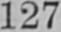127
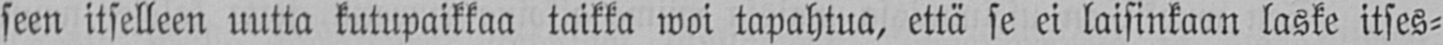seen itselleen uutta kutupaikkaa taikka woi tapahtua, että se ei laisinkaan laske itses-
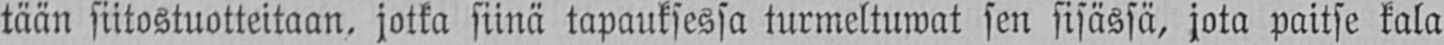tään siitostuotteitaan, jotka siinä tapauksessa turmeltuwat sen sisässä, jota paitse kala
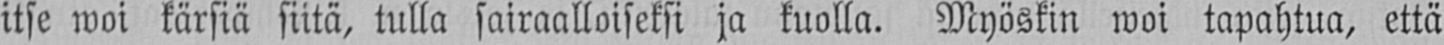itse woi kärsiä siitä, tulla sairaalloiseksi ja kuolla. Myöskin woi tapahtua, että
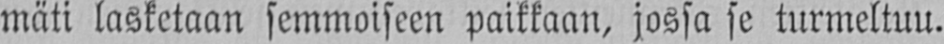mäti lasketaan semmoiseen paikkaan, jossa se turmeltuu.
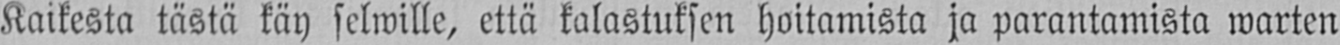Kaikesta tästä käy selwille, että kalastuksen hoitamista ja parantamista warten
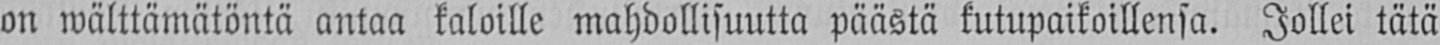on wälttämätöntä antaa kaloille mahdollisuutta päästä kutupaikoillensa. Jollei tätä
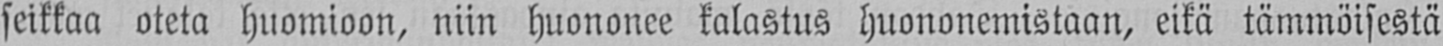seikkaa oteta huomioon, niin huononee kalastus huononemistaan, eikä tämmöisestä
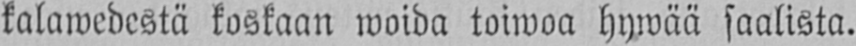kalawedestä koskaan woida toiwoa hywää saalista.
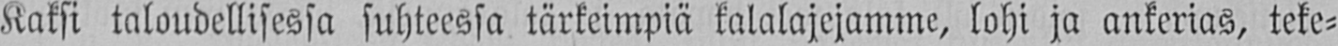Kaksi taloudellisessa suhteessa tärkeimpiä kalalajejamme, lohi ja ankerias, teke-
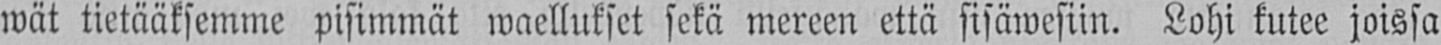wät tietääksemme pisimmät waellukset sekä mereen että sisäwesiin. Lohi kutee joissa
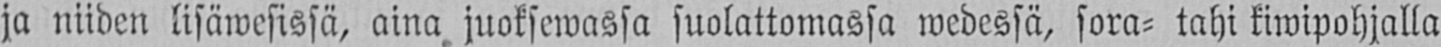ja niiden lisäwesissä, aina juoksewassa suolattomassa wedessä, sora- tahi kiwipohjalla
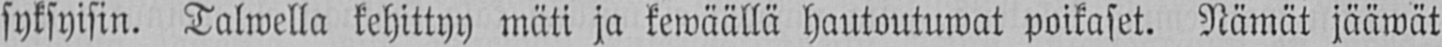syksyisin. Talwella kehittyy mäti ja kewäällä hautoutuwat poikaset. Rämät jääwät
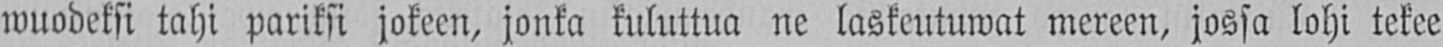wuodeksi tahi pariksi jokeen, jonka kuluttua ne laskeutuwat mereen, jossa lohi tekee
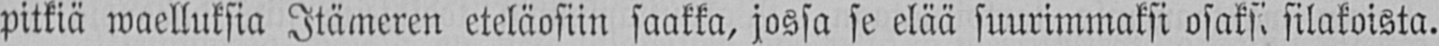pitkiä waelluksia Itämeren eteläosiin saakka, jossa se elää suurimmaksi osaksi silakoista.
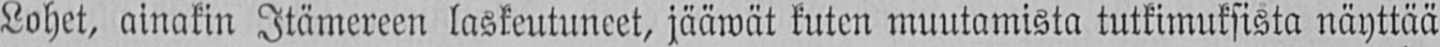Lohet, ainakin Itämereen laskeutuneet, jääwät kuten muutamista tutkimuksista näyttää
